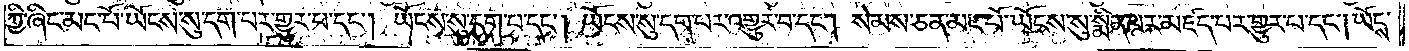ཀྱི་ཞིང་མང་པོ་ཡོངས་སུ་དག་པར་གྱུར་པ་དང༌། ཡོངས་སུ་དག་པ་དང༌། ཡོངས་སུ་དག་པར་འགྱུར་བ་དང༌། སེམས་ཅན་མང་པོ་ཡོངས་སུ་སྨིན་པར་མཛད་པར་གྱུར་པ་དང༌། ཡོངས་
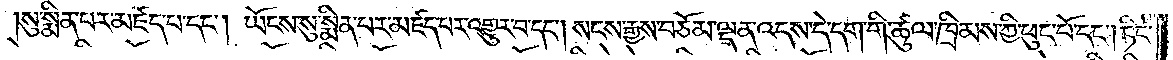སུ་སྨིན་པར་མཛད་པ་དང༌། ཡོངས་སུ་སྨིན་པར་མཛད་པར་འགྱུར་བ་དང༌། སངས་རྒྱས་བཅོམ་ལྡན་འདས་དེ་དག་གི་ཚུལ་ཁྲིམས་ཀྱི་ཕུང་པོ་དང༌། ཏིང་
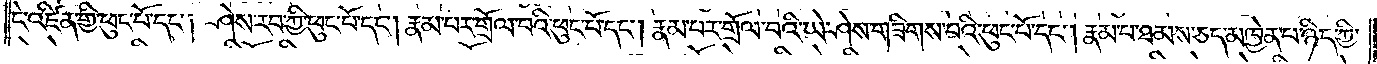ངེ་འཛིན་གྱི་ཕུང་པོ་དང༌། ཤེས་རབ་ཀྱི་ཕུང་པོ་དང༌། རྣམ་པར་གྲོལ་བའི་ཕུང་པོ་དང༌། རྣམ་པར་གྲོལ་བའི་ཡེ་ཤེས་གཟིགས་པའི་ཕུང་པོ་དང༌། རྣམ་པ་ཐམས་ཅད་མཁྱེན་པ་ཉིད་ཀྱི་
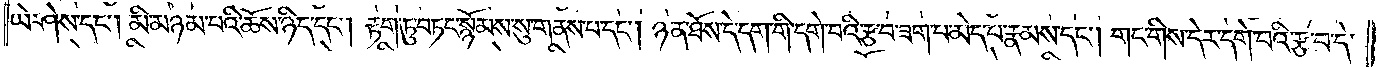ཡེ་ཤེས་དང༌། མི་མཉམ་པའི་ཆོས་ཉིད་དང༌། རྟག་ཏུ་བཏང་སྙོམས་སུ་གནས་པ་དང༌། ཉན་ཐོས་དེ་དག་གི་དགེ་བའི་རྩ་བ་ཟག་པ་མེད་པ་རྣམས་དང༌། གང་གིས་དེར་དགེ་བའི་རྩ་བ་དེ་
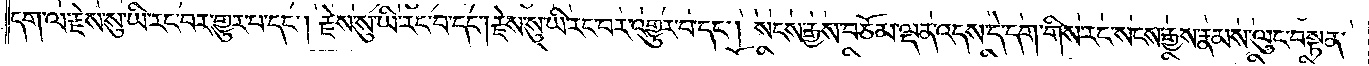དག་ལ་རྗེས་སུ་ཡི་རང་བར་གྱུར་པ་དང༌། རྗེས་སུ་ཡི་རང་བ་དང༌། རྗེས་སུ་ཡི་རང་བར་འགྱུར་བ་དང༌། སངས་རྒྱས་བཅོམ་ལྡན་འདས་དེ་དག་གིས་རང་སངས་རྒྱས་རྣམས་ལུང་བསྟན་
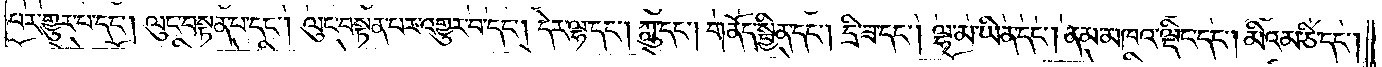པར་གྱུར་པ་དང༌། ལུང་བསྟན་པ་དང༌། ལུང་བསྟན་པར་འགྱུར་བ་དང༌། དེར་ལྷ་དང༌། ཀླུ་དང༌། གནོད་སྦྱིན་དང༌། དྲི་ཟ་དང༌། ལྷ་མ་ཡིན་དང༌། ནམ་མཁའ་ལྡིང་དང༌། མིའམ་ཅི་དང༌།
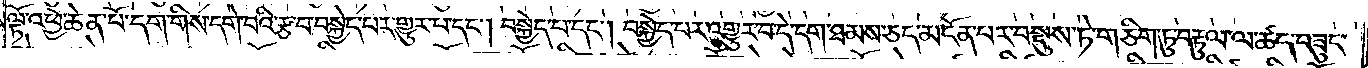ལྟོ་འཕྱེ་ཆེན་པོ་དག་གིས་དགེ་བའི་རྩ་བ་བསྐྱེད་པར་གྱུར་པ་དང༌། བསྐྱེད་པ་དང༌། བསྐྱེད་པར་འགྱུར་བ་དེ་དག་ཐམས་ཅད་མངོན་པར་བསྡུས་ཏེ་གཅིག་ཏུ་བརྟུལ་ལ་ཚད་བཟུང་
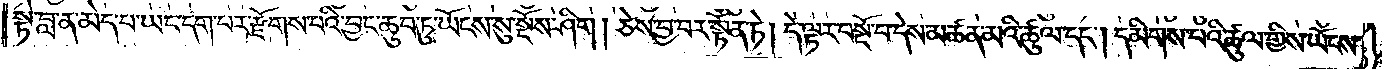སྟེ་བླ་ན་མེད་པ་ཡང་དག་པར་རྫོགས་པའི་བྱང་ཆུབ་ཏུ་ཡོངས་སུ་སྔོས་ཤིག། ཅེས་བྱ་བར་སྟོན་ཏེ། དེ་ལྟར་བསྔོ་བ་དེས་མཚན་མའི་ཚུལ་དང༌། དམིགས་པའི་ཚུལ་གྱིས་ཡོངས་
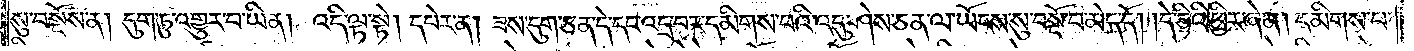སུ་བསྔོས་ན། དུག་ཏུ་འགྱུར་བ་ཡིན། འདི་ལྟ་སྟེ། དཔེར་ན། ཟས་དུག་ཅན་དེ་དང་འདྲ་བར་དམིགས་པའི་འདུ་ཤེས་ཅན་ལ་ཡོངས་སུ་བསྔོ་བ་མེད་དོ། །དེ་ཅིའི་ཕྱིར་ཞེ་ན། དམིགས་པ་
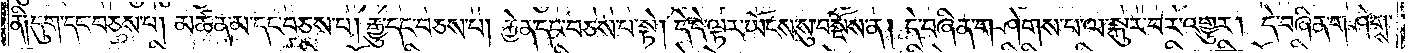ནི༑ དུག་དང་བཅས་པ། མཚན་མ་དང་བཅས་པ། རྒྱུ་དང་བཅས་པ། རྐྱེན་དང་བཅས་པ་སྟེ། དེ་དེ་ལྟར་ཡོངས་སུ་བསྔོས་ན། དེ་བཞིན་གཤེགས་པ་ལ་སྐུར་པར་འགྱུར། དེ་བཞིན་གཤེགས་
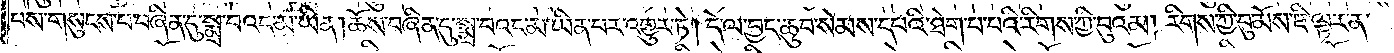པས་གསུངས་པ་བཞིན་དུ་སྨྲ་བའང་མ་ཡིན། ཆོས་བཞིན་དུ་སྨྲ་བའང་མ་ཡིན་པར་འགྱུར་ཏེ། དེ་ལ་བྱང་ཆུབ་སེམས་དཔའི་ཐེག་པ་པའི་རིགས་ཀྱི་བུའམ། རིགས་ཀྱི་བུ་མོས་ཇི་ལྟར་ན་
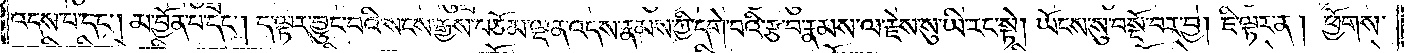འདས་པ་དང༌། མ་བྱོན་པ་དང༌། ད་ལྟར་བྱུང་བའི་སངས་རྒྱས་བཅོམ་ལྡན་འདས་རྣམས་ཀྱི་དགེ་བའི་རྩ་བ་རྣམས་ལ་རྗེས་སུ་ཡི་རང་སྟེ། ཡོངས་སུ་བསྔོ་བར་བྱ། ཇི་ལྟར་ན། ཕྱོགས་
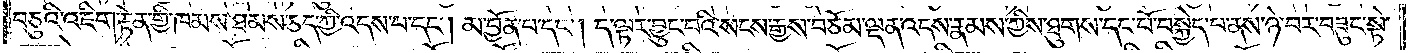བཅུའི་འཇིག་རྟེན་གྱི་ཁམས་ཐམས་ཅད་ཀྱི་འདས་པ་དང༌། མ་བྱོན་པ་དང༌། ད་ལྟར་བྱུང་བའི་སངས་རྒྱས་བཅོམ་ལྡན་འདས་རྣམས་ཀྱིས་ཐུགས་དང་པོ་བསྐྱེད་པ་ནས་ཉེ་བར་བཟུང་སྟེ་
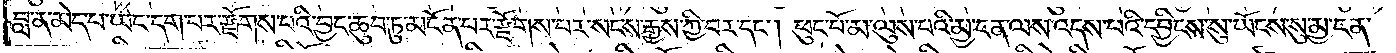བླ་ན་མེད་པ་ཡང་དག་པར་རྫོགས་པའི་བྱང་ཆུབ་ཏུ་མངོན་པར་རྫོགས་པར་སངས་རྒྱ་སྐྱི་བར་དང༌། ཕུང་པོ་མ་ལུས་པའི་མྱ་ངན་ལས་འདས་པའི་དབྱིངས་སུ་ཡོངས་སུ་མྱ་ངན་
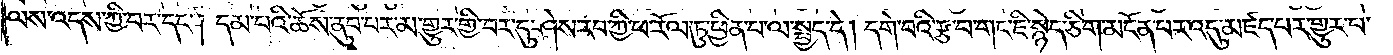ལས་འདས་ཀྱི་བར་དང༌། དམ་པའི་ཆོས་ནུབ་པར་མ་གྱུར་གྱི་བར་དུ་ཤེས་རབ་ཀྱི་ཕ་རོལ་ཏུ་ཕྱིན་པ་ལ་སྤྱད་དེ། དགེ་བའི་རྩ་བ་གང་ཇི་སྙེད་ཅིག་མངོན་པར་འདུ་མཛད་པར་གྱུར་པ་
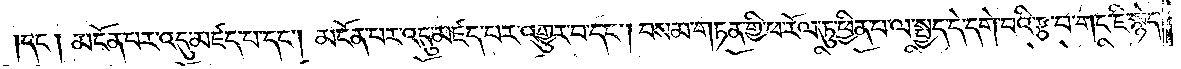དང༌། མངོན་པར་འདུ་མཛད་པ་དང༌། མངོན་པར་འདུ་མཛད་པར་འགྱུར་བ་དང༌། བསམ་གཏན་གྱི་ཕ་རོལ་ཏུ་ཕྱིན་པ་ལ་སྤྱད་དེ་དགེ་བའི་རྩ་བ་གང་ཇི་སྙེད་
